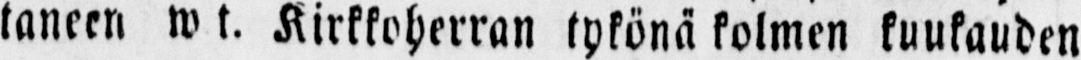taneen w t. Kirkkoherran tykönä kolmen kuukauden
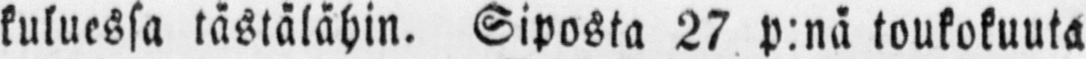kuluessa tästälähin. Siposta 27 p:nä toukokuuta
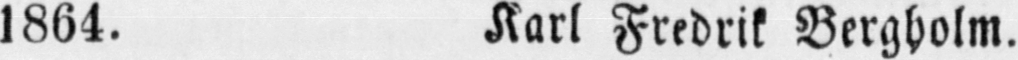1864. Karl Fredrik Bergholm.
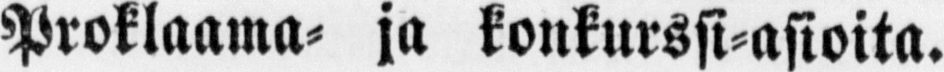Proklaama- ja konkurssi-asioita.
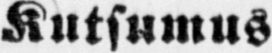Kutsumus welkojille:
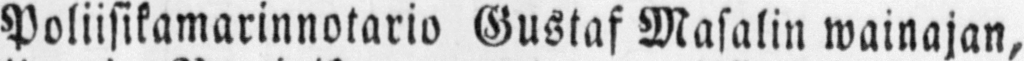Poliisikamarinnotario Gustaf Masalin wainajan,
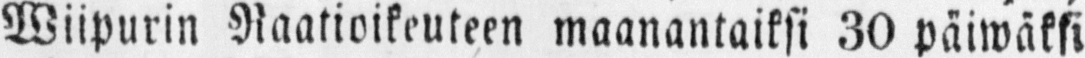Wiipurin Raatioikeuteen maanantaiksi 30 päiwäksi
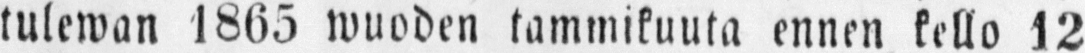tulewan 1865 wuoden tammikuuta ennen kello 12
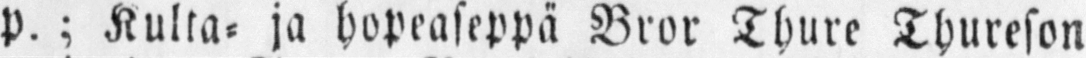P. ; Kulta- ja hopeaseppä Bror Thure Thureson
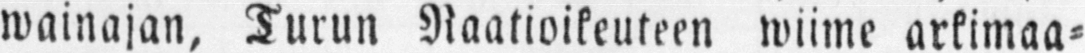wainajan, Turun Raatioikeuteen wiime arkimaa-
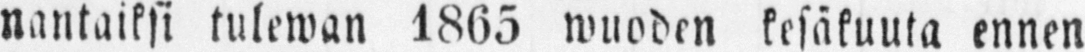nantaiksi tulewan 1865 wuoden kesäkuuta ennen
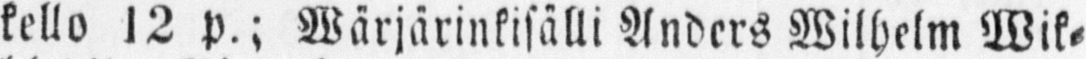kello 12 p.; Wärjärinkisälli Anders Wilhelm Wik-
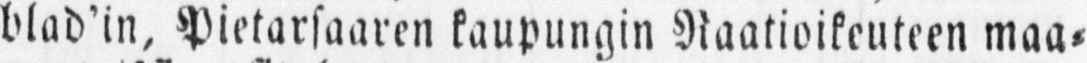blad'in, Pietarsaaren kaupungin Raatioikeuteen maa-
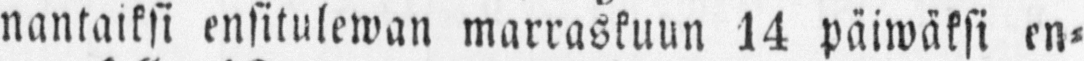nantaiksi ensitulewan marraskuun 14 päiwäksi en-
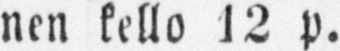nen kello 12 p.
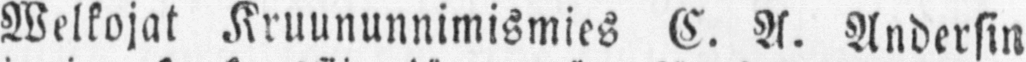Welkojat Kruununnimismies C. A. Andersin
